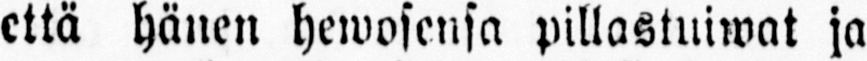että hänen hewosensa pillastuiwat ja
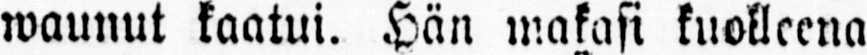waunut kaatui. Hän makasi kuolleena
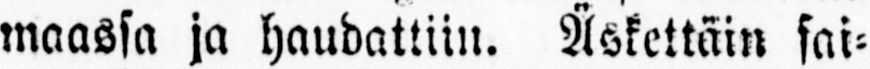maassa ja haudattiin. Äskettäin soi-
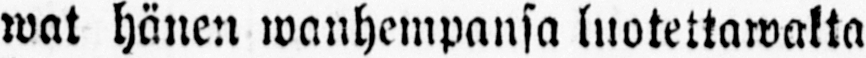wat hänen wanhempansa luotettawakta
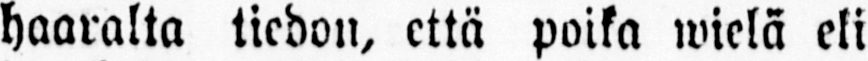haaralta tiedon, että poika wielä eli
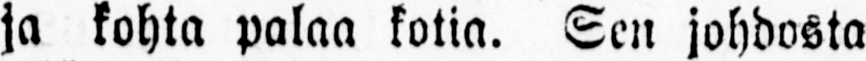ja kohta palaa kotia. Sen johdosta
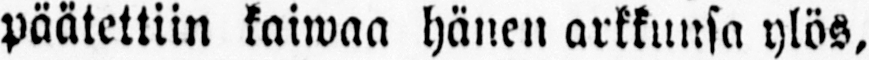päätettiin kaiwaa hänen arkkunsa ylös,
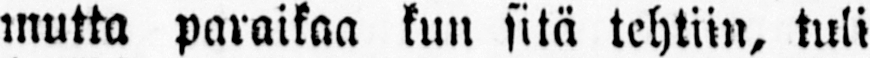mukka paraikaa kun sitä tehtiin, tuli
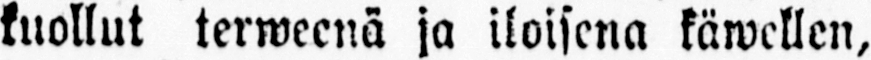kuollut terweenä ja iloisena käweklen,
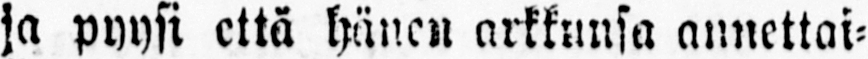ja pyysi että hänen arkkunsa annettai-
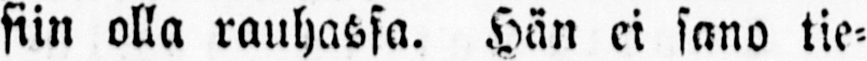siin olla rauhassa. Hän ei sano tie-
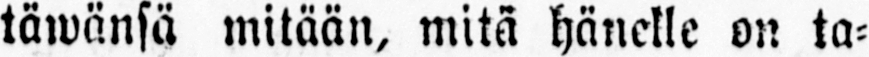täwänsä mitään, mitä hänelle on ta-
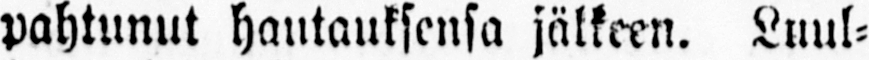pahtunut hautauksensa jälkeen. Luul-
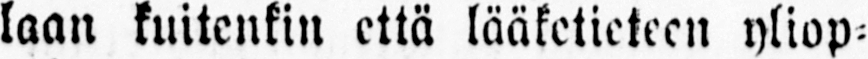laan kuitenkin että lääketieteen yliop-
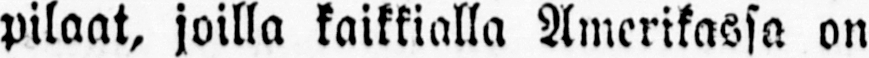pilaat, joilla kaikkialla Amerikassa on
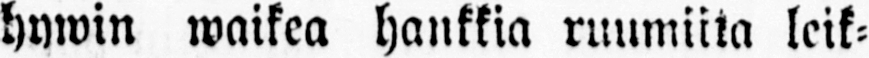hywin waikea hankkia ruumiita leik-
